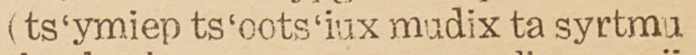(ts'ymiep ts'oots'iux mudix ta syrtmu
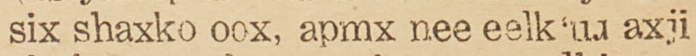six shaxko oox, apmx nee eelk'uu axji
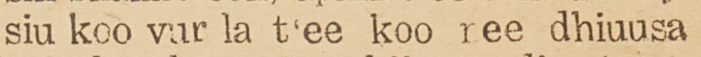siu koo vur la t'ee koo ree dhiuusa
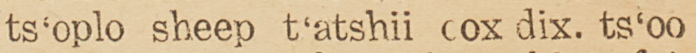ts'oplo sheep t'atshii oox dix. ts'oo
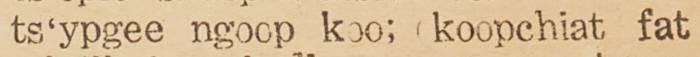ts'ypgee ngoop koo; nkoopchiat fat
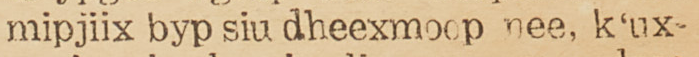mipjiix byp siu dheexmoop nee, k'ux-
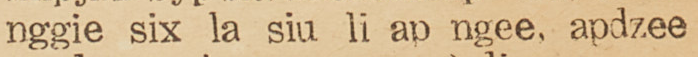nggie six la siu li ap ngee, apdzee
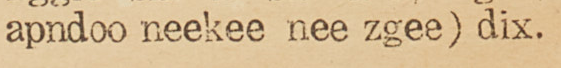apndoo neekee nee zgee) dix.
